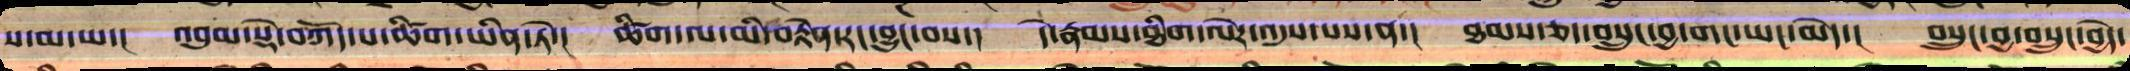ས་མ་ཡ་།  འབུམ་སྡེ་བཀོད་པ་ཚིག་ཡིན་ཏེ་།  ཚིག་ལ་མི་བརྟེན་རང་བྱུང་བས་།  དེ་རྣམས་ཐིག་ལེར་འདུས་པས་ན་།  ཐམས་ཅད་བསྲུང་བྱ་གང་ཡང་མེད་།  བསྲུང་བྱ་བསྲུང་བྱེད་
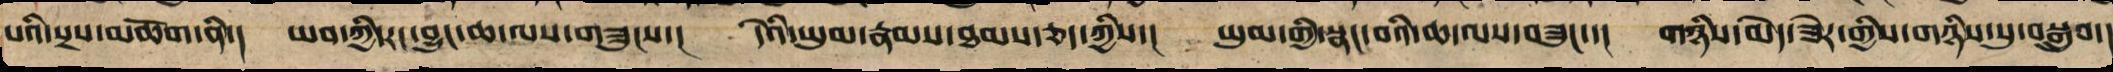པའི་སྲས་མཆོག་ནི་། ཡབ་ཀྱི་རང་བྱུང་ཆ་ལས་གཟུང་་། ད་ཡི་ཡུམ་རྣམས་ཐམས་ཅད་ཀྱིས་། ཡུམ་གྱི་སྣང་བའི་ཆ་ལས་གཟུང་་། གཉིས་མེད་ཟེར་གྱིས་གཉིས་སུ་བསྒྲུབ་།
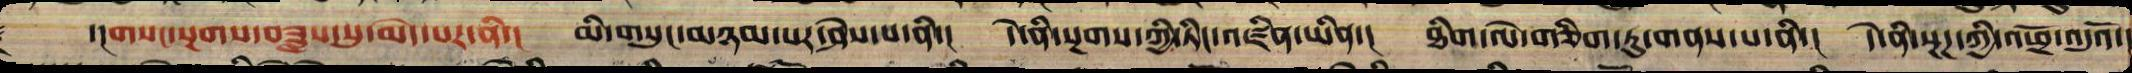་།།གསང་སྔགས་བཟླས་སུ་མེད་པ་ནི་།  མི་གསུང་མཉམ་པར་ཤེས་པ་ནི་།  དེ་ནི་སྔགས་ཀྱི་ཏིང་འཛིན་ཡིན་།  ཐིག་ལེ་གཅིག་ཏུ་གནས་པ་ནི་།  དེ་ནི་སྔགས་ཀྱི་འཕྲོ་འདུའོ་
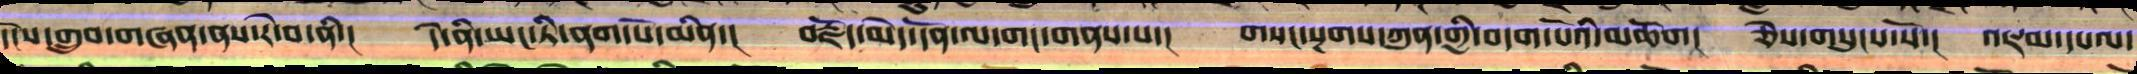དངོས་གྲུབ་གཞན་ནས་རེ་བ་ནི་།   དེ་ནི་ཡང་ཏི་ནག་པོ་མིན་།  བརྗོད་མེད་དོན་ལ་གང་གནས་པ་།  གསང་སྔགས་ཀུན་གྱི་བདག་པོའི་མཆོག།  ཅེས་གསུངས་སོ་། འཇམ་དཔལ་
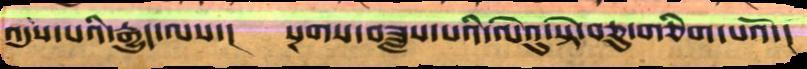འདུས་པའི་རྒྱུད་ལས་།   སྔགས་བཟླས་པའི་ལེའུ་སྟེ་བཅུ་གཅིག་པའོ་།།
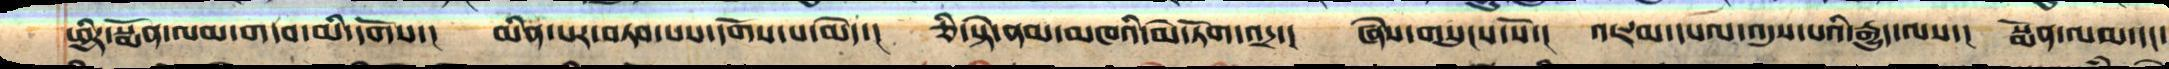ཕྱིར་སྨོན་ལམ་གདབ་མི་དགོས་།  མིན་པར་བཏབ་པས་དགོས་པ་མེད་།  ཅི་སྟེ་ནམ་མཁའི་མེ་ཏོག་འདྲ་།   ཞེས་གསུངས་སོ་།  འཇམ་དཔལ་འདུས་པའི་རྒྱུད་ལས་། སྨོན་ལམ་དང་
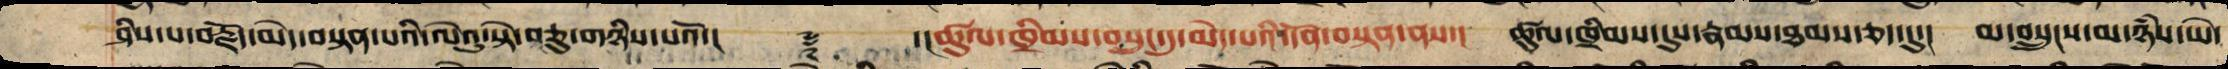ཤིས་པ་བརྗོད་མེད་བསྟན་པའི་ལེའུ་སྟེ་བཅུ་གཉིས་པའོ་།།     ༈   ་།ཚུལ་ཁྲིམས་བསྲུང་དུ་མེད་པའི་དོན་བསྟན་ནས་།   ཚུལ་ཁྲིམས་དུས་་རྣམས་ཐམས་ཅད་དུ་།  མ་བསྲུངས་མ་ཉཾས་ཡེ་
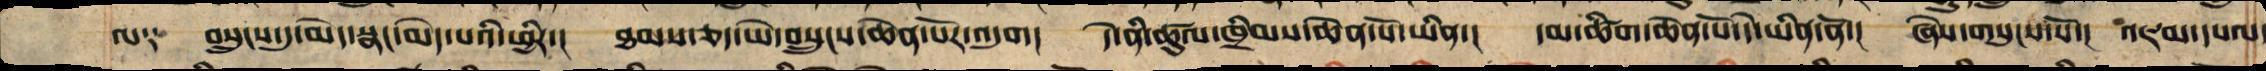ལ༑  བསྲུང་དུ་མེད་སྣང་མེད་པའི་ཕྱིར་།  ཐམས་ཅད་ཡེ་བསྲུངས་ཆེན་པོར་འདུག།   དེ་ནི་ཚུལ་ཁྲིམས་ཆེན་པོ་ཡིན་།   དམ་ཚིག་ཆེན་པོ་དེ་ཡིན་ནོ་།  ཞེས་གསུངས་སོ་།  འཇམ་དཔལ་
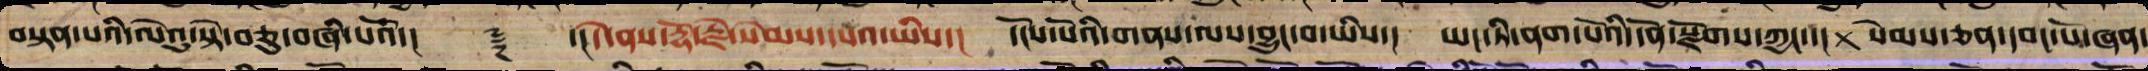བསྟན་པའི་ལེའུ་སྟེ་བཅུ་བཞི་པའོ་།།     ༈    ་།།དེ་ནས་རྡོ་རྗེ་སེམས་དཔའ་ཡིས་།  དངོས་པོའི་གནས་ལས་བྱུང་བ་ཡིས་།   ཡང་ཏི་ནག་པོའི་དོན་སྫོགས་ཀྱང་་།  སེམས་ཅན་དབང་པོ་གཞན་
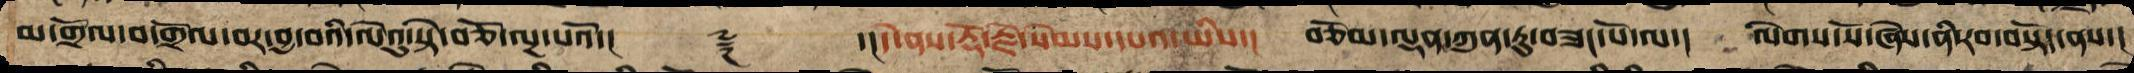མ་གྲོལ་བ་གྲོལ་བར་བྱ་བའི་ལེའུ་སྟེ་བཅོ་ལྔ་པའོ་།།       ༈     ་།།དེ་ནས་རྡོ་རྗེ་སེམས་དཔའ་ཡིས་།  བཅོམ་ལྡན་ཀུན་ཏུ་བཟང་པོ་ལ་།  ལེགས་སོ་ཞེས་ནི་རབ་བསྟོད་ནས་།
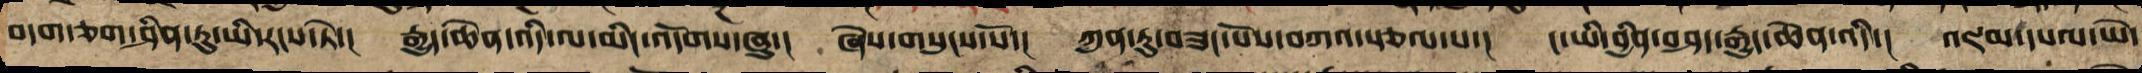བདག་ཅག་ཤིན་ཏུ་ཡི་རངས་ཏེ་།  རྒྱུད་ཆེན་འདི་ལ་མིང་འདོགས་ཞུ་།  ཞེས་གསུངས་སོ་།  ཀུན་ཏུ་བཟང་པོས་བཀའ་སྩལ་པ་།  །་ཡི་བྱིན་བཤད་རྒྱུད་ཆེན་འདི་།  འཇམ་དཔལ་ཡེ་
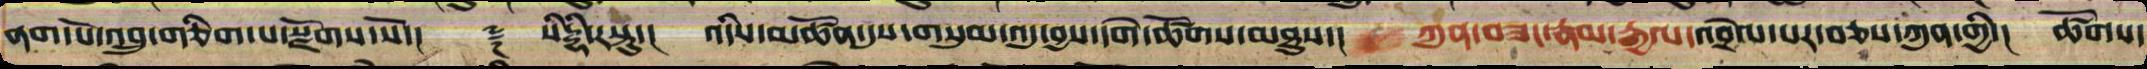ནག་པོ་འབྲུ་གཅིག་པ་སྫོགས་སོ་།།    ༈   སིདྡྷི་རསྟུ་། འདིས་མཚོན་དུས་གསུམ་འདུ་བྱས་དགེ་ཚོགས་མཐུས་།    ཀུན་བཟང་རྣམ་རྒྱལ་འབྲེལ་པར་བཅས་ཀུན་གྱི་།  ཚོགས་
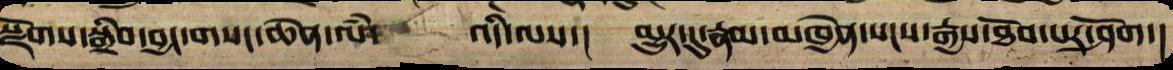སྫོགས་སྒྲིབ་བྱང་གསང་ཆེན་ལཾ་།   འདི་ལས་།  མྱུར་དུ་རྣམ་མཁྱེན་སངས་རྒྱས་ཐོབ་པར་ཤོག་།
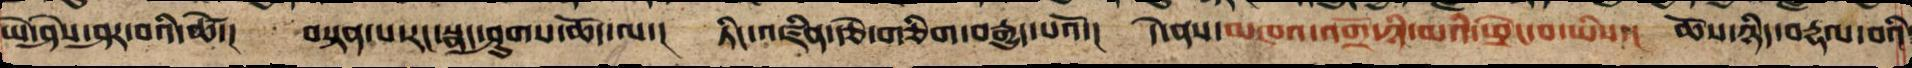ཡེ་ཤེས་ཤར་བའི་ཚེ་། བསྟན་པ་རང་སྣང་ཤུགས་ཆོད་ལ་། ཏིང་འཛིན་རྩེ་གཅིག་བརྒྱུད་པའོ་། དེ་ནས་མཁའ་འགྲོ་ཉི་མའི་ཕྲེང་བ་ཡིས་། ཆོས་ཉིད་བརྡལ་བའི་
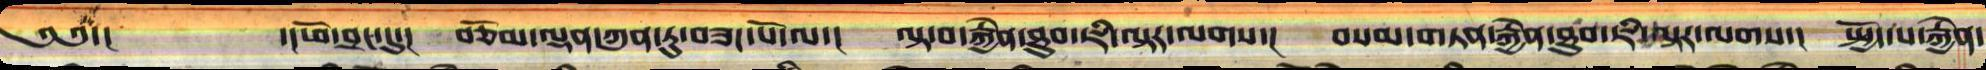༄༅་། ་།ཕོ་བྲང་དུ་། བཅོམ་ལྡན་ཀུན་ཏུ་བཟང་པོ་ལ་། བལྟ་བ་རྐྱེན་ཐུབ་ཇི་ལྟར་ལགས་། བསམ་གཏན་རྐྱེན་ཐུབ་ཇི་ལྟར་ལགས་། སྤྱོད་པ་རྐྱེན་
